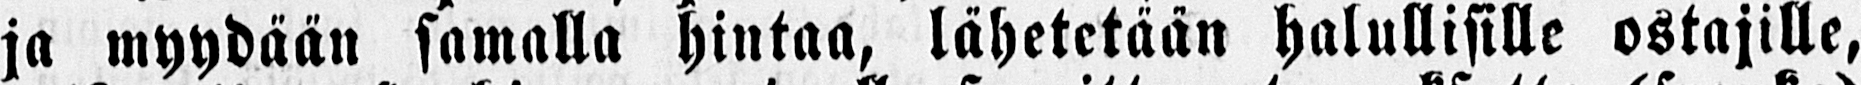ja myydään samalla hintaa, lähetetään halullisille ostajille,
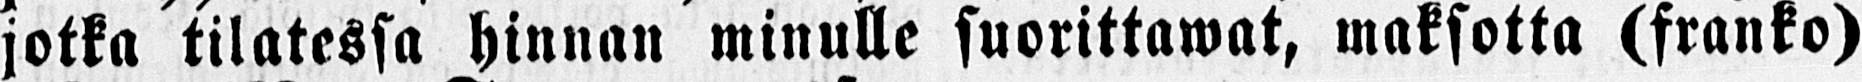jotka tilatessa hinnan minulle suorittawat, maksotta (franko)
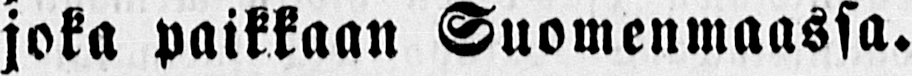joka paikkaan Suomenmaassa.
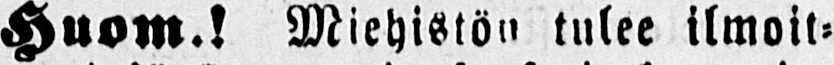Huom.! Miehistön tulee ilmoit-
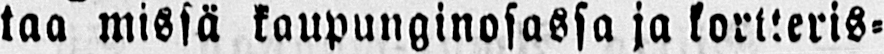taa missä kaupunginosassa ja kortteris-
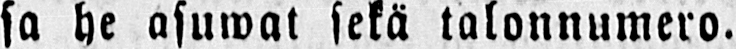sa he asuwat sekä talonnumero.
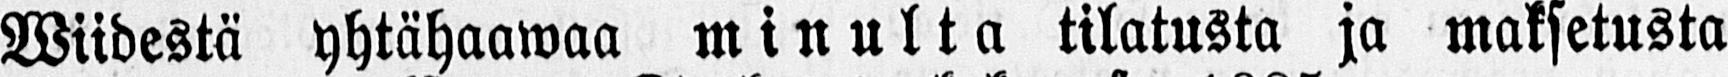Wiidestä yhtähaawaa minulta tilatusta ja maksetusta
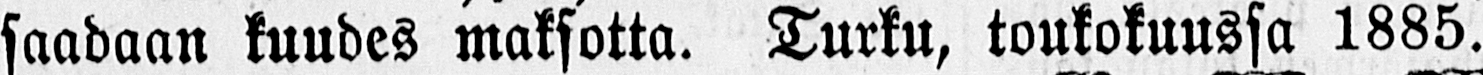saadaan kuudes maksotta. Turku, toukokuussa 1885.
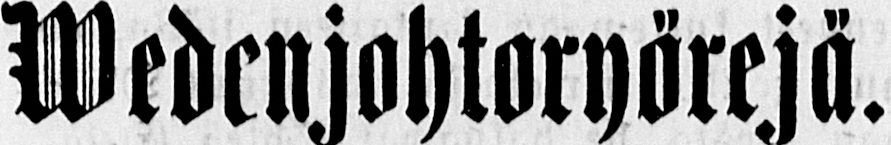Wedenjohtoryörejä
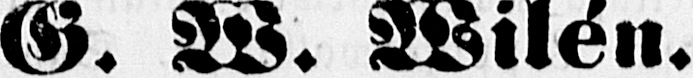G. W. Wilé n.
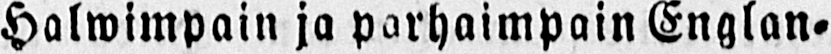Halwimpain ja parhaimpain Englan-
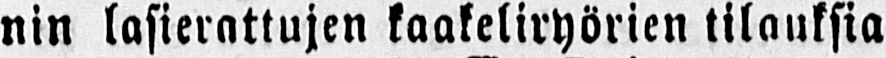nin lasierattujen kaakeliryörien tilauksia
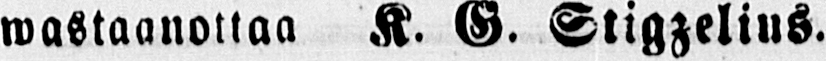wastaanottaa K. G. Stigzelius.
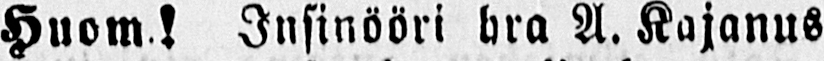Huom! Insinööri hra A. Kajanus
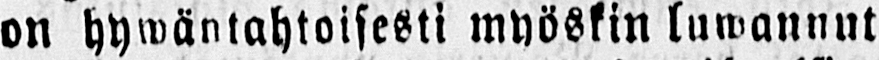on hywäntahtoisesti myöskin luwannut
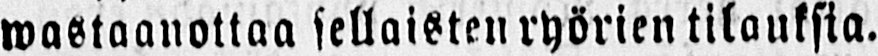wastaanottaa sellaisten ryörien tilauksia.
